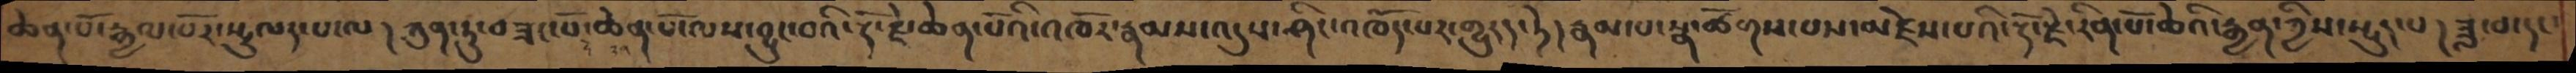ཆེན་པོ་རྒྱལ་པོར་སྤྲུལད་པ་ལ།  ཀུན་ཏུ་བཟང་པོ་ཆེན་པོ་ལས་བྱུང་བའི་རྡོ་རྗེ་ཆེན་པོའི་འཁོར་རྣམས་འདུས་ཤིང་འཁོད་པར་གྱུརད་ཏེ། རྣམ་པ་སྣ་ཚོགས་པས་མཛེས་པའི་རྡོ་རྗེ་རིན་པོ་ཆེའི་རྒྱན་ཀྱིས་སྡུད་པ། ཟླ་བ་དང་
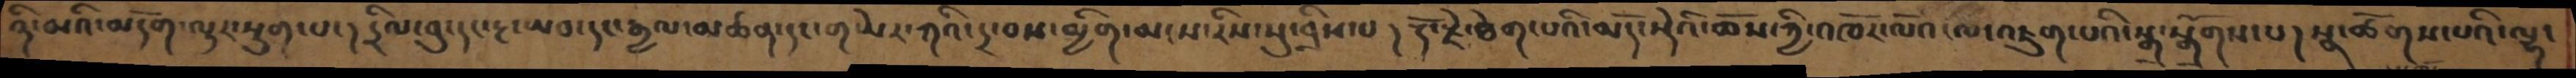ཉི་མའི་མདོག་ལྟར་སྡུག་པ་ །དྲིལ་བུ་དང་རྔ་ཡབ་དང་རྒྱལ་མཚན་དང་གཡེར་ཀའི་དྲ་བས་མྱིག་མངས་རིས་སུ་བྲིས་པ །རྡོ་རྗེ་ཐེག་པའི་མདོ་སྡེའི་ཆོས་ཀྱི་འཁོར་ལོའ་ལ་འཇུག་པའི་སྒྲ་སྒྲོགས་པ།སྣ་ཚོགས་པའི་ལྷ་
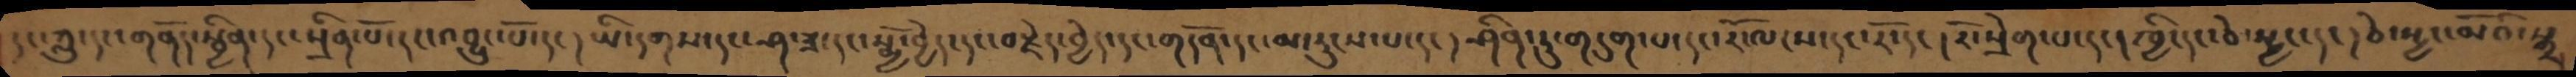དང་ཀླུ་དང་གནོད་སྦྱིན་དང་སྲིན་པོ་དང་འབྱུང་པོ་དང །ཡི་དགས་དང་ཤ་ཟ་དང་སྨྱོ་བྱེད་དང་བརྗེད་བྱེད་དང་གདོན་དང་མ་རུངས་པ་དང །ཤིན་ཏུ་གདུག་པ་དང་རོ་ལངས་དང་རོ་དང །རོ་སྲེག་པ་དང་།ཁྱི་དང་ཅེ་སྐྱང་དང །ཅེ་སྤྱང་མོའི་སྒྲ
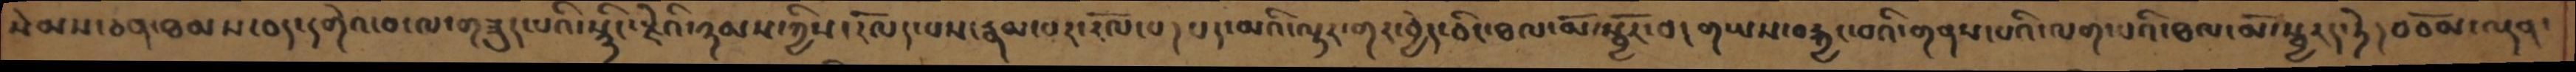སེམས་ཅན་ཐམས་ཅད་དགེའ་བ་ལ་གཟུད་པའི་སྙིང་རྗེའི་ཉམས་ཀྱིས་རོལད་པས་རྣམ་པར་རོལ་པ། པད་མའི་ལྟར་གར་བྱེད་ཅིང་ཐལ་མོ་སྦྱོར་བ། གཡས་བརྐྱང་བའི་གནས་པའི་ལག་པའི་ཐལ་མོ་སྦྱརད་ཏེ །བཅོམ་ལྡན་
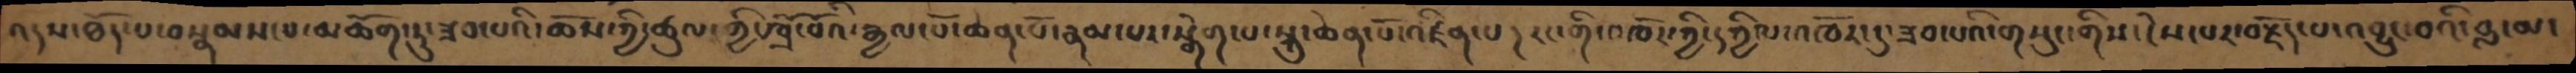འདས་ཐོད་པ་བསྣམས་པ་མཆོག་ཏུ་ཟབ་པའི་ཆོས་ཀྱི་ཚུལ་ཀྱི་ཁྲོ་བོའི་རྒྱལ་པོ་ཆེན་པོ་རྣམ་པར་སྒེག་པ་སྐུ་ཆེན་པོ་འཛིན་པ། རང་གི་འཁོར་ཀྱི་དཀྱིལ་འཁོར་དུ་ཟབ་པའི་གསུང་གིས་ངེས་པར་བརྗོད་པ་འབྱུང་བའི་བླ་མ་
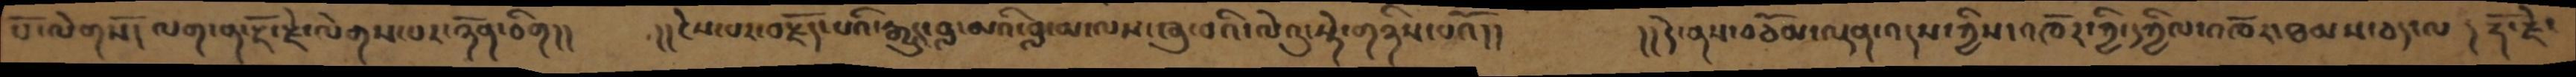པོ་ལེགསོ། ལག་ན་རྡོ་རྗེ་ལེགས་པར་ཉོན་ཅིག།།     །།ངེས་པར་བརྗོད་པའི་རྒྱུད་བླ་མའི་བླ་མ་ལས་ཞུ་བའི་ལེའུ་སྟེ་གཉིས་པའོ།།     །།དེ་ནས་བཅོམ་ལྡན་འདས་ཀྱིས་འཁོར་ཀྱི་དཀྱིལ་འཁོར་ཐམས་ཅད་ལ་ །རྡོ་རྗེ་
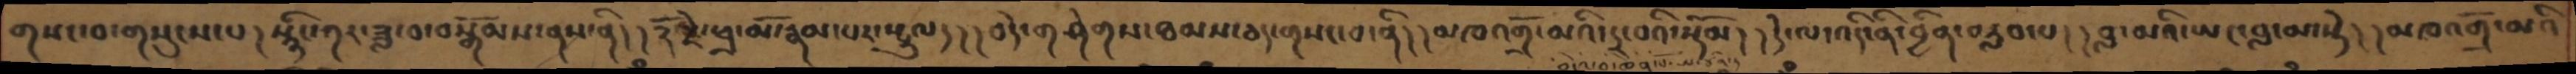གསང་བ་གསུངས་པ། སྙིང་ཀར་ཟླ་བ་བསྒོམས་ནས་ནི། །རྡོ་རྗེ་ཕྲ་མོ་རྣམ་པར་སྤྲུལ། ། །བདེ་གཤེགས་ཐམས་ཅད་གསང་བ་ནི། །མཁའགྲོ་མའི་དྲ་བའི་སྡོམ། །དེ་ལ་འདི་ནི་བྱིན་བརླབ་པ། །བླ་མའི་ཡང་བླ་མ་སྟེ། །མཁའགྲོ་མའི
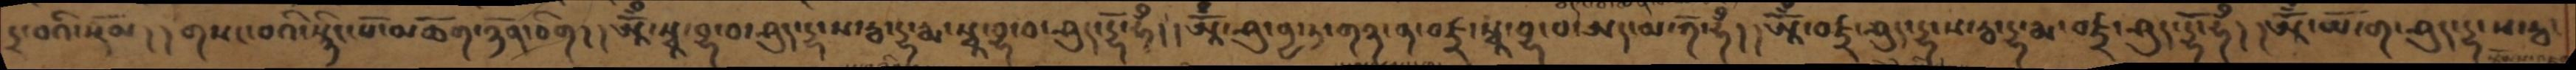དྲ་བའི་སྡོམ། །གསང་བའི་སྙིང་པོ་མཆོག་ཉོན་ཅིག། །ཨཱོཾ་སྭཱ་བྷ་བ་ཤུད་དྷ་ས་རྦ་དྷ་རྨ་སྭཱ་བྷ་བ་ཤུད་དྷོ་ཧྃ། །ཨཱོཾ་ཤུ་ནྱ་ཏ་ཀཉ་ན་བཛྲ་སྭཱ་བྷ་བ་ཨད་མ་ཀོ་ཧྃ། །ཨཱོཾ་བཛྲ་ཤུད་དྷ་ས་རྦ་དྷ་རྨ་བཛྲ་ཤུད་དྷོ་ཧཾ། །ཨཱོཾ་ཡོ་ག་ཤུད་དྷ་ས་ཏྭ་
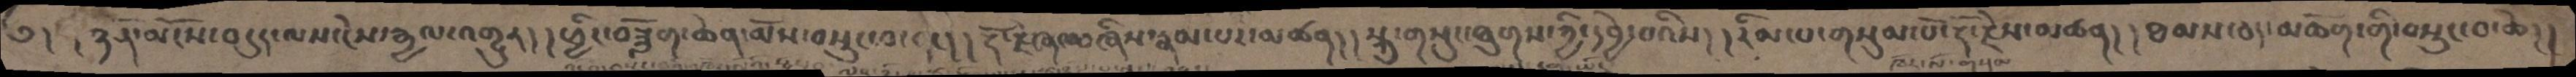༄། །ཉོན་མོངས་བདུད་ལས་ངེས་རྒྱལ་འགྱུར། །ཕྱིར་བཟློག་ཆེན་མོས་བསྲུང་བ་དང། །རྡོ་རྗེ་ཞལ་བཞིས་རྣམ་པར་མཚན། །སྐུ་གསུང་ཐུགས་ཀྱི་དབྱེ་བའིས། །རིམ་པ་གསུམ་པོ་རྡོ་རྗེས་མཚན། །ཐམས་ཅད་མཆོག་གི་བསྲུང་བ་ཆེ། །
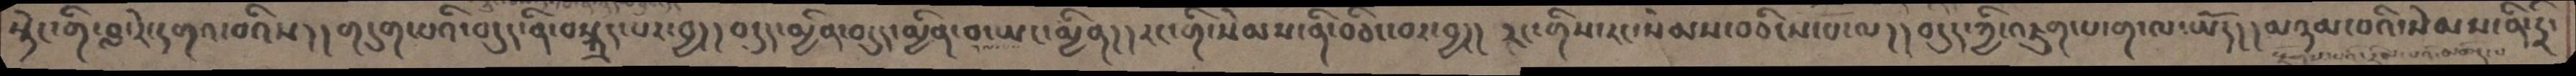སྟེང་གི་བླ་རེ་དགའ་བའིས། །གདུག་པའི་བདུད་ནི་བསྐྲད་པར་བྱ། །བདུད་མྱིན་བདུད་མྱིན་བ་ཡང་མྱིན། །རང་གི་སེམས་ནི་བཅིང་བར་བྱ།། རང་གིས་རང་སེམས་བཅིངས་པ་ལ།། བདུད་ཀྱི་འཇུག་པ་ག་ལ་ཡོད།།མཉམ་པའི་སེམས་ནི་དྲི་
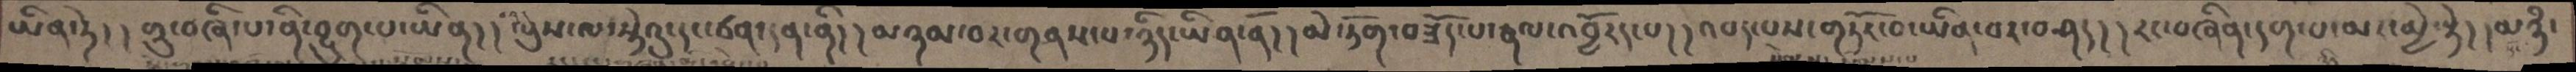ཡིན་ཏེ། །གྲུ་བཞི་པ་ནི་བྱུག་པ་ཡིན། །ལུས་ལ་སྟེའུ་དང་ཙན་དན་ནི། །མཉམ་བར་གནས་པ་ཉིད་ཡིན་ནོ། །མེ་ཏོག་བཟོད་པ་རྣལ་འབྱོརད་པ། །འབད་པས་གཏོར་བ་ཡིན་བར་བཤད། །རང་བཞིན་དག་པ་མར་མྱེ་སྟེ། །མཉཾ་
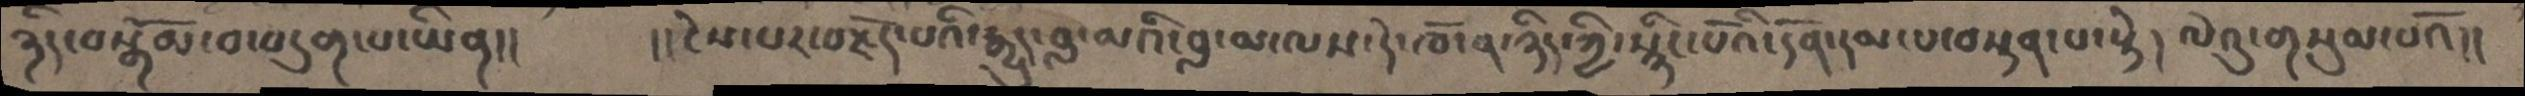ཉིད་བསྒོམ་བ་བདུག་པ་ཡིན་།།     །།ངེས་པར་བརྗོད་པའི་རྒྱུད་བླ་མའི་བླ་མ་ལས་དེ་ཁོ་ན་ཉིད་ཀྱི་སྙིང་པོའི་དོན་དམ་པ་བསྟན་པ་སྟེ།  ལེའུ་གསུམ་པའོ།།
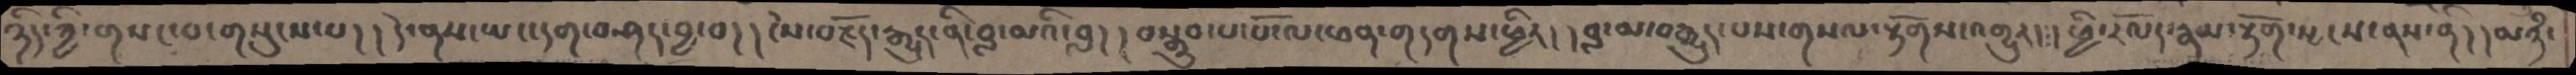ཉིད་ཀྱི་གསང་བ་གསུངས་པ། །དེ་ནས་ཡང་དག་བཤད་བྱ་བ།  །ངེས་བརྗོད་རྒྱུད་ནི་བླ་མའི་བླ།  །བསྒྲུབ་པ་པོ་ལ་ཕན་གདགས་ཕྱིར།  །བླ་མ་བརྒྱུད་པས་གསལ་རྟོགས་འགྱུར།༴།ཕྱི་རོལད་རྣམ་རྟོག་སངས་ནས་ནི། །མཉཾ་
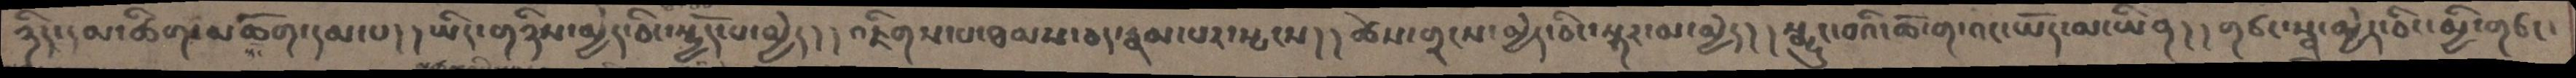ཉིད་དམ་ཚིག་མཆོག་དམ་པ། །ཡིད་གཉིས་མྱེད་ཅིང་སྤྱོད་པ་མྱེད། །འཇིགས་པ་ཐམས་ཅད་རྣམ་པར་སྤངས། །ཚེས་གྲངས་མྱེད་ཅིང་སྐར་མ་མྱེད། །སྨྱུང་བའི་ཆོ་ག་འང་ཡོད་མ་ཡིན། །གཙང་སྦྲ་མྱེད་ཅིང་མྱི་གཙང་
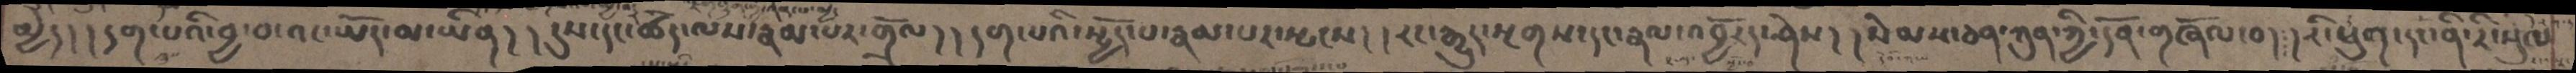མྱེད། །དག་པའི་བྱ་བ་འང་ཡོད་མ་ཡིན། །དུས་དང་ཚོད་ལས་རྣམ་པར་གྲོལ། །དག་པའི་སྤྱོད་པ་རྣམ་པར་སྤངས། །རང་རྒྱུད་སྔགས་དང་རྣལ་འབྱོརད་ཤེས། །སེམས་ཅན་ཀུན་ཀྱི་དོན་གཞོལ་བ། །རི་ཕུག་དང་ནི་རི་སུལ
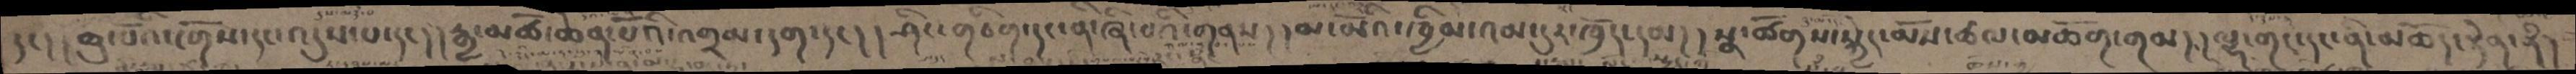དང། །ཆུ་བོའི་ངོགས་དང་འདུས་པ་དང། །རྒྱ་མཚོ་ཆེན་པོའི་འགྲམ་དག་དང། །ཤིང་གཅིག་དང་ནི་ཞི་བའི་གནས། །མ་མོའི་ཁྱིམ་འམ་དུར་ཁྲོད་དམ། །སྣ་ཚོགས་སྐྱེད་མོས་ཚལ་མཆོག་གམ། །ལྷ་གང་དང་ནི་མཆོད་རྟེན་ནི།
